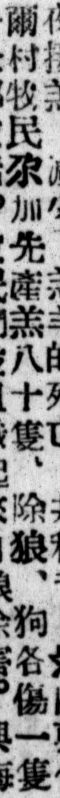爾村牧民尕加先產羔八十隻，除狼、狗各傷一隻
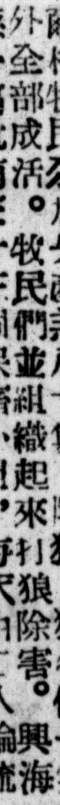外全部成活。牧民們並組織起來打狼除害。興海
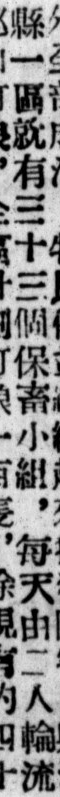縣一區就有三十三個保畜小組，每天由二人輪流
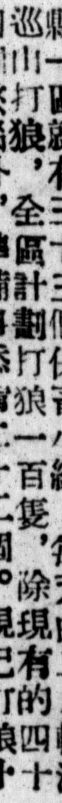巡山打狼，全區計劃打狼一百隻，除現有的四十
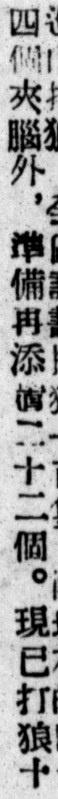四個夾腦外，準備再添置二十二個。現已打狼十
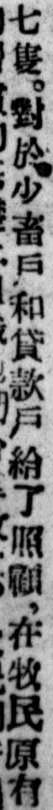七隻。對於少畜戶和貸款戶給了照顧，在牧民原有
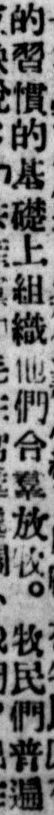的習慣地基礎上組織他們合羣放牧。牧民很普遍
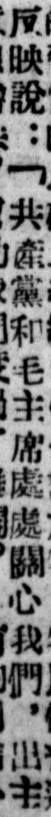反映說：「共產黨和毛主席處處關心我們，出主
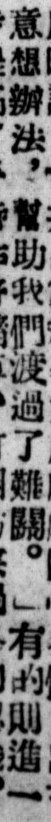意想辦法，幫助我們渡過了難關。」有的則進一
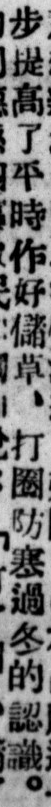步提高了平時作好備草、打圈防寒過冬的認識。
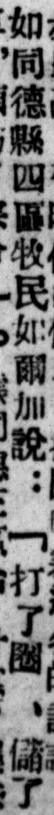如同德縣四區牧民如爾加說： 「打了圈、儲了
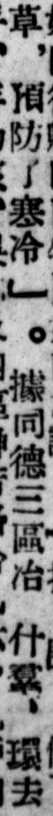草、預防了寒冷」。據同德三區冶 什羣、環去
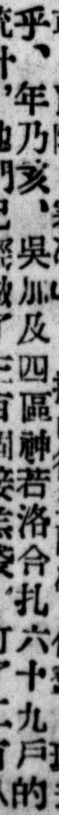乎、年乃亥、吳加及四區神若洛合扎六十九戶的
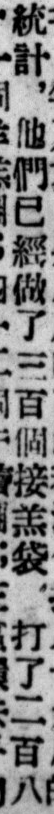統計，他們已經做了三百個接羔袋，打了二百八
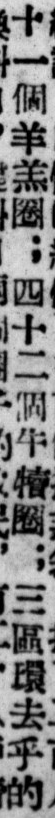十一個羊羔圈；四十二個牛槽圈；三區環去乎的
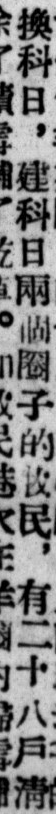換科日、建科日兩個圈子的牧民，有二十八戶清
